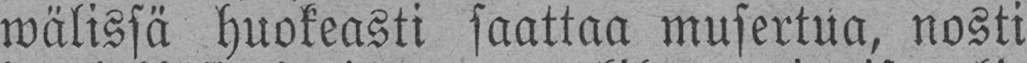wälissä huokeasti saattaa musertua, nosti
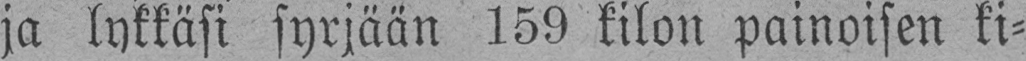ja lykkäsi syrjään 159 kilon painoisen ki-
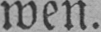wen.
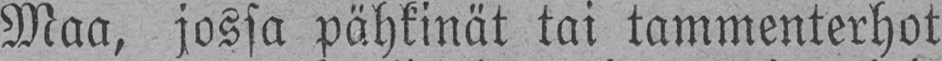Maa, jossa pähkinät tai tammenterhot
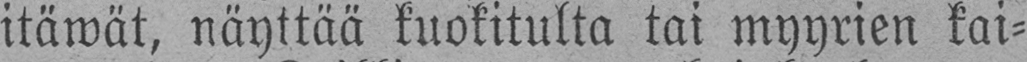itäwät, näyttää kuokitulta tai myyrien kai-
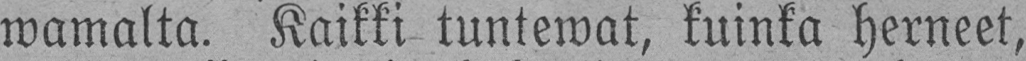wamalta. Kaikki tuntewat, kuinka herneet,
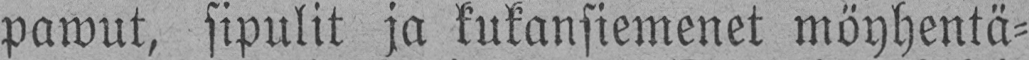pawut, sipulit ja kukansiemenet möyhentä-
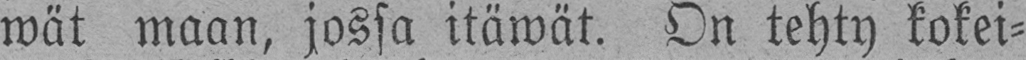wät maan, jossa itäwät. On tehty kokei-
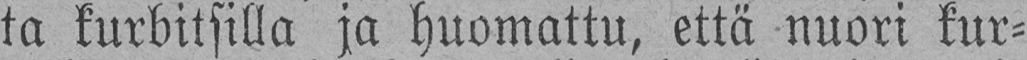ta kurbitsilla ja huomattu, että nuori kur-
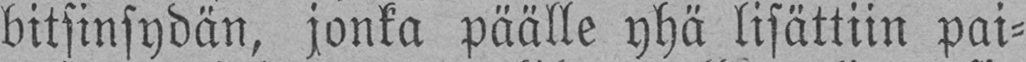bitsinsydän, jonka päälle yhä lisättiin pai-
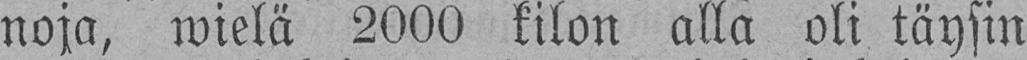noja, wielä 2000 kilon alla oli täysin
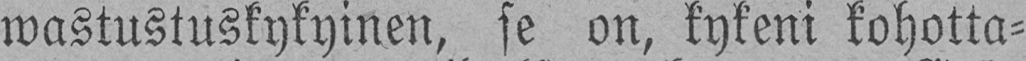wastustuskykyinen, se on, kykeni kohotta-
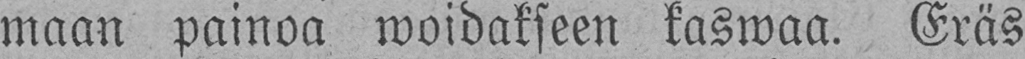maan painoa woidakseen kaswaa. Eräs
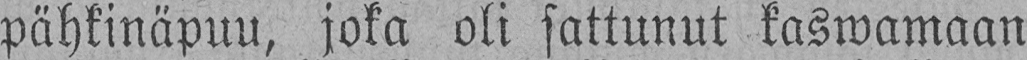pähkinäpuu, joka oli sattunut kaswamaan
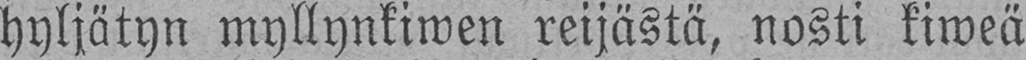hyljätyn myllynkiwen reijästä, nosti kiweä
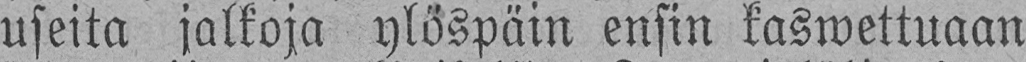useita jalkoja ylöspäin ensin kaswettuaan
